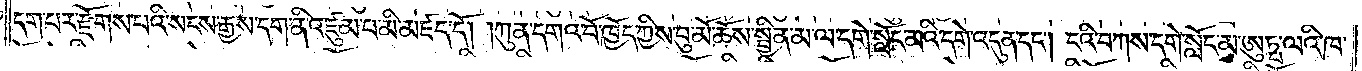དག་པར་རྫོགས་པའི་སངས་རྒྱས་དག་ནི་འཛུམ་པ་མི་མཛད་དོ། །ཀུན་དགའ་བོ་ཁྱོད་ཀྱིས་བུ་མོ་ཆོས་སྦྱིན་མ་ལ་དགེ་སློང་མའི་དགེ་འདུན་དང༌། ངའི་བཀས་དགེ་སློང་མ་ཨུཏྤ་ལའི་ཁ་
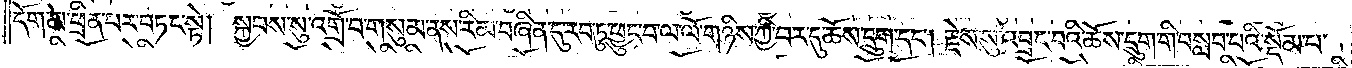དོག་མ་ཕྲིན་པར་བཏང་སྟེ། སྐྱབས་སུ་འགྲོ་བ་གསུམ་ནས་རིམ་བཞིན་དུ་རབ་ཏུ་ཕྱུང་བ་ལ་ལོ་གཉིས་ཀྱི་བར་དུ་ཆོས་དྲུག་དང༌། རྗེས་སུ་འབྲང་བའི་ཆོས་དྲུག་གི་བསླབ་པའི་སྡོམ་པ་
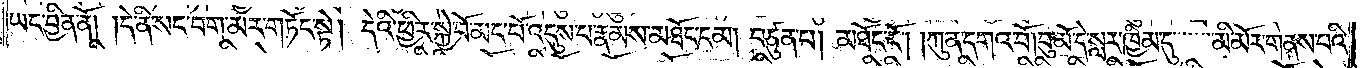ཡང་བྱིན་ནོ། །དེ་ནི་སང་བག་མར་གཏོང་སྟེ། དེའི་ཕྱིར་སྐྱེ་བོ་མང་པོ་འདུས་པ་རྣམས་མཐོང་ངམ། བཙུན་པ། མཐོང་ངོ༌། །ཀུན་དགའ་བོ། བུ་མོ་དེ་སླར་ཁྱིམ་དུ་མི་མོར་གནས་པའི་
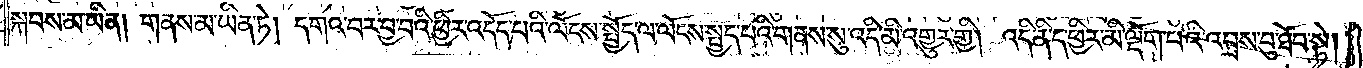སྐབས་མ་ཡིན། གནས་མ་ཡིན་ཏེ། དགའ་བར་བྱ་བའི་ཕྱིར་འདོད་པའི་ལོངས་སྤྱོད་ལ་ལོངས་སྤྱད་པའི་གནས་སུ་འདི་མི་འགྱུར་གྱི། འདི་ནི་ད་ཕྱིར་མི་ལྡོག་པའི་འབྲས་བུ་ཐོབ་སྟེ།
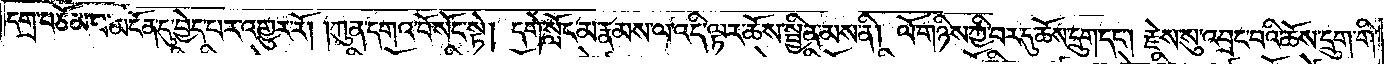དགྲ་བཅོམ་པ་མངོན་དུ་བྱེད་པར་འགྱུར་རོ། །ཀུན་དགའ་བོ་སོང་སྟེ། དགེ་སློང་མ་རྣམས་ལ་འདི་ལྟར་ཆོས་སྦྱིན་མས་ནི། ལོ་གཉིས་ཀྱི་བར་དུ་ཆོས་དྲུག་དང༌། རྗེས་སུ་འབྲང་བའི་ཆོས་དྲུག་གི་
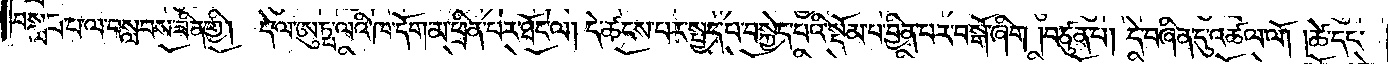བསླབ་པ་ལ་བསླབས་ཟིན་གྱི། དེ་ལ་ཨུཏྤ་ལའི་ཁ་དོག་མ་ཕྲིན་པར་ཐོང་ལ། དེ་ཚངས་པར་སྤྱད་པ་བསྐྱེད་པའི་སྡོམ་པ་བྱིན་པར་བསྒོ་ཞིག །བཙུན་པ། དེ་བཞིན་དུ་འཚལ་ལོ། །ཚེ་དང་
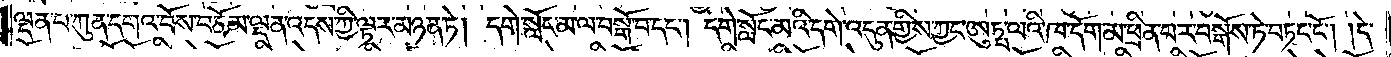ལྡན་པ་ཀུན་དགའ་བོས་བཅོམ་ལྡན་འདས་ཀྱི་ལྟར་མཉན་ཏེ། དགེ་སློང་མ་ལ་བསྒོ་བ་དང༌། དགེ་སློང་མའི་དགེ་འདུན་གྱིས་ཀྱང་ཨུཏྤ་ལའི་ཁ་དོག་མ་ཕྲིན་པར་བསྒོས་ཏེ་བཏང་ངོ༌། །དེ་
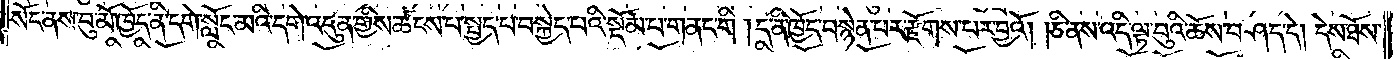སོང་ནས་བུ་མོ་ཁྱོད་ནི་དགེ་སློང་མའི་དགེ་འདུན་གྱིས་ཚངས་པ་སྤྱད་པ་བསྐྱེད་པའི་སྡོམ་པ་གནང་གི །ད་ནི་ཁྱོད་བསྙེན་པར་རྫོགས་པར་བྱའོ། །ཅི་ནས་འདི་ལྟ་བུའི་ཆོས་བཤད་དེ། དེས་ཐོས་
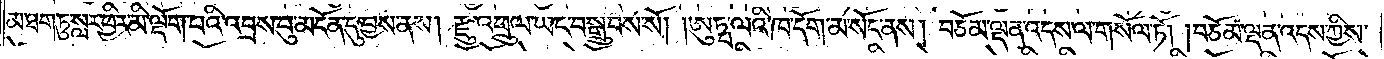མ་ཐག་ཏུ་སླར་ཕྱིར་མི་ལྡོག་པའི་འབྲས་བུ་མངོན་དུ་བྱས་ནས། རྫུ་འཕྲུལ་ཡང་བསྒྲུབས་སོ། །ཨུཏྤ་ལའི་ཁ་དོག་མ་སོང་ནས། བཅོམ་ལྡན་འདས་ལ་གསོལ་ཏོ། །བཅོམ་ལྡན་འདས་ཀྱིས་
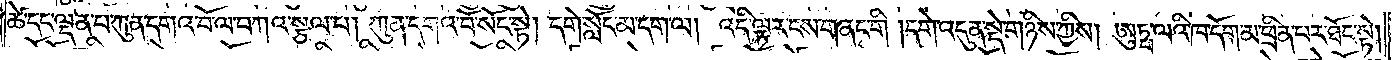ཚེ་དང་ལྡན་པ་ཀུན་དགའ་བོ་ལ་བཀའ་སྩལ་པ། ཀུན་དགའ་བོ་སོང་སྟེ། དགེ་སློང་མ་དག་ལ། འདི་ལྟར་ངས་གནང་གི །དགེ་འདུན་སྡེ་གཉིས་ཀྱིས། ཨུཏྤ་ལའི་ཁ་དོག་མ་ཕྲིན་པར་ཐོང་སྟེ།
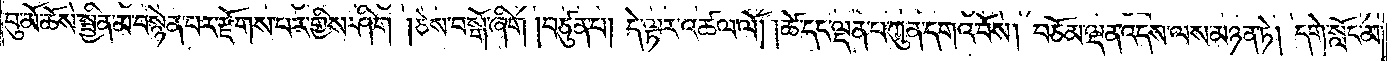བུ་མོ་ཆོས་སྦྱིན་མ་བསྙེན་པར་རྫོགས་པར་གྱིས་ཤིག །ཅེས་བསྒོ་ཞིག །བཙུན་པ། དེ་ལྟར་འཚལ་ལོ། །ཚེ་དང་ལྡན་པ་ཀུན་དགའ་བོས། བཅོམ་ལྡན་འདས་ལས་མཉན་ཏེ། དགེ་སློང་མ་
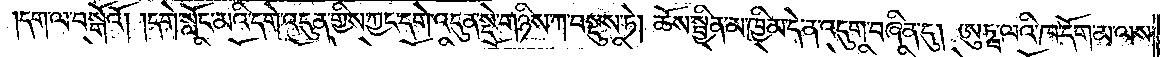དག་ལ་བསྒོའོ། །དགེ་སློང་མའི་དགེ་འདུན་གྱིས་ཀྱང་དགེ་འདུན་སྡེ་གཉིས་ཀ་བསྡུས་ཏེ། ཆོས་སྦྱིན་མ་ཁྱིམ་དེ་ན་འདུག་བཞིན་དུ། ཨུཏྤ་ལའི་ཁ་དོག་མ་ལས་
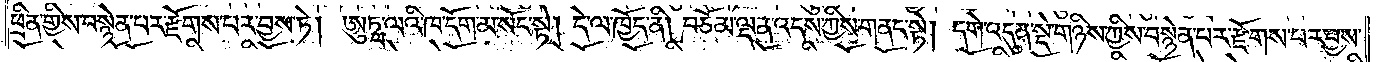ཕྲིན་གྱིས་བསྙེན་པར་རྫོགས་པར་བྱས་ཏེ། ཨུཏྤ་ལའི་ཁ་དོག་མ་སོང་སྟེ། དེ་ལ་ཁྱོད་ནི། བཅོམ་ལྡན་འདས་ཀྱིས་གནང་སྟེ། དགེ་འདུན་སྡེ་གཉིས་ཀྱིས་བསྙེན་པར་རྫོགས་པར་བྱས་
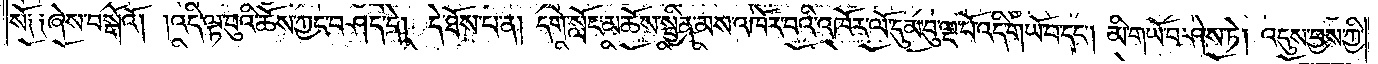སོ༑ ༑ཞེས་བསྒོའོ། །འདི་ལྟ་བུའི་ཆོས་ཀྱང་བཤད་དེ། དེ་ཐོས་པ་ན། དགེ་སློང་མ་ཆོས་སྦྱིན་མས་འཁོར་བའི་འཁོར་ལོ་དུམ་བུ་ལྔ་པོ་འདི་གཡོ་བ་དང༌། མི་གཡོ་བ་ཤེས་ཏེ། འདུས་བྱས་ཀྱི་
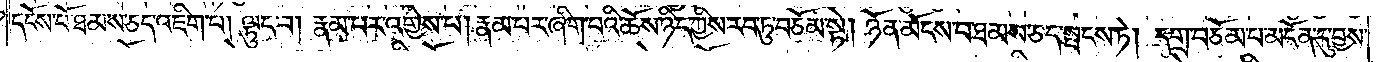དངོས་པོ་ཐམས་ཅད་འཇིག་པ། ལྟུང་བ། རྣམ་པར་འགྱེས་པ། རྣམ་པར་ཞིག་པའི་ཆོས་ཉིད་ཀྱིས་རབ་ཏུ་བཅོམ་སྟེ། ཉོན་མོངས་པ་ཐམས་ཅད་སྤངས་ཏེ། དགྲ་བཅོམ་པ་མངོན་དུ་བྱས་
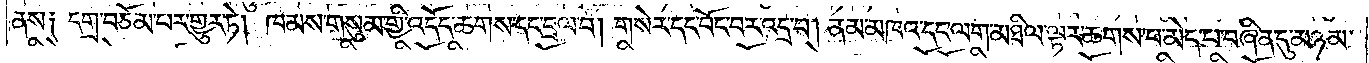ནས༑ དགྲ་བཅོམ་པར་གྱུར་ཏེ། ཁམས་གསུམ་གྱི་འདོད་ཆགས་དང་བྲལ་བ། གསེར་དང་བོང་བར་འདྲ་བ། ནམ་མཁའ་དང་ལག་མཐིལ་ལྟར་ཆགས་པ་མེད་པ་བཞིན་དུ་མཉམ་
